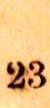23
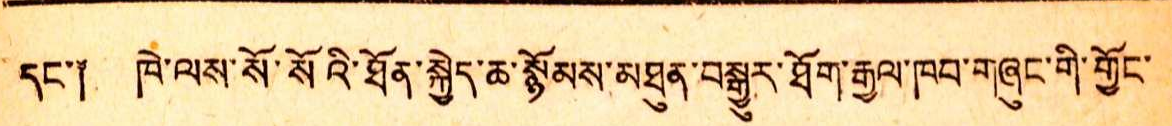དང་། ཁེ་ལས་སོ་སོའི་ཐོན་སྐྱེད་ཆ་སྙོམས་མཐུན་བསྒྱུར་ཐོག་རྒྱལ་ཁབ་གཞུང་གི་གྱོང་
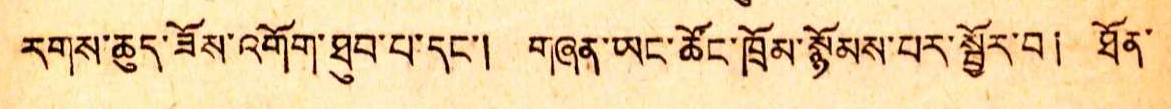རགས་ཆུད་ཟོས་འགོག་ཐུབ་པ་དང་། གཞན་ཡང་ཚོང་ཁྲོམ་སྙོམས་པར་སྦྱོར་བ། ཐོན་
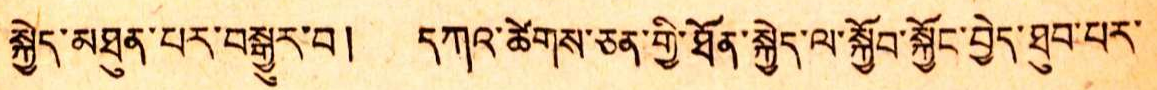སྐྱེད་མཐུན་པར་བསྒྱུར་བ། དཀའ་ཚེགས་ཅན་གྱི་ཐོན་སྐྱེད་ལ་སྐྱོབ་སྐྱོང་བྱེད་ཐུབ་པར་
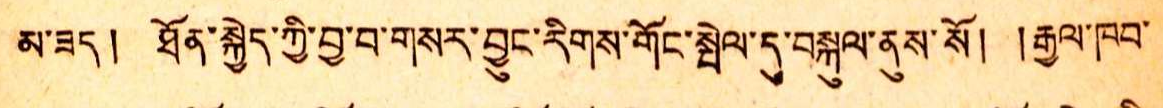མ་ཟད། ཐོན་སྐྱེད་ཀྱི་བྱ་བ་གསར་བྱུང་རིགས་གོང་སྤེལ་དུ་བསྐུལ་ནུས་སོ། །རྒྱལ་ཁབ་
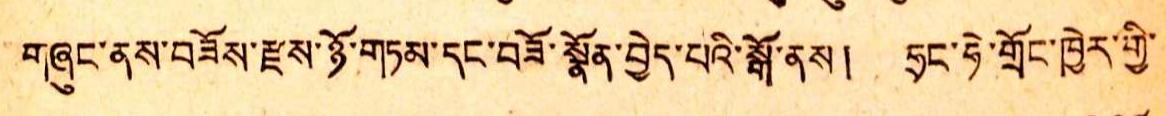གཞུང་ནས་བཟོས་རྫས་ཉོ་གཏམ་དང་བཟོ་སྣོན་བྱེད་པའི་སྒོ་ནས། ཧྲང་ཧེ་གྲོང་ཁྱེར་གྱི་
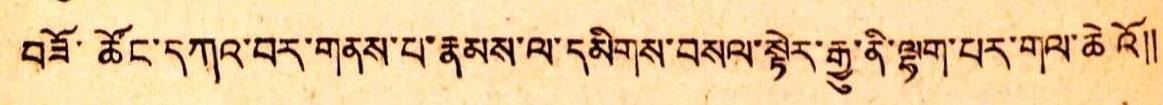བཟོ་ཚོང་དཀའ་བར་གནས་པ་རྣམས་ལ་དམིགས་བསལ་སྟེར་རྒྱུ་ནི་ལྷག་པར་གལ་ཆེའོ༎
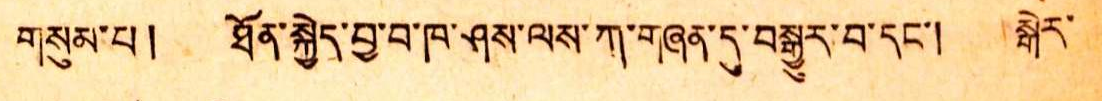གསུམ་པ། ཐོན་སྐྱེད་བྱ་བ་ཁ་ཤས་ལས་ཀ་གཞན་དུ་བསྒྱུར་བ་དང་། སྒེར་
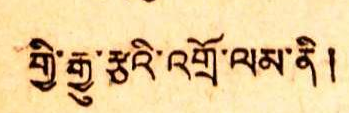གྱི་རྒྱུ་རྩའི་འགྲོ་ལམ་ནི།
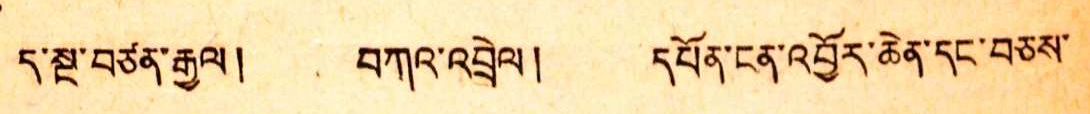ད་སྔ་བཙན་རྒྱལ། བཀའ་འབྲེལ། དཔོན་ངན་འབྱོར་ཆེན་དང་བཅས་
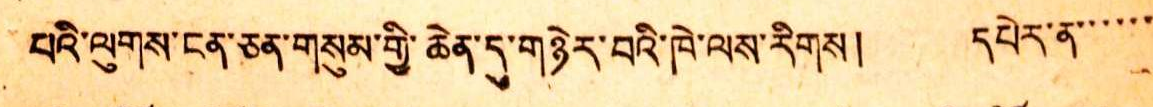བའི་ལུགས་ངན་ཅན་གསུམ་གྱི་ཆེན་དུ་གཉེར་བའི་ཁེ་ལས་རིགས། དཔེར་ན་་་་་་
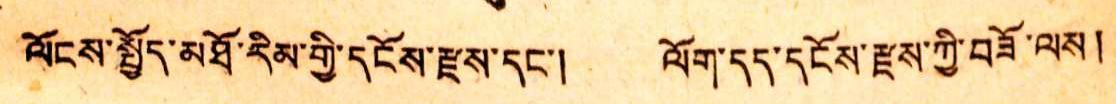ལོངས་སྤྱོད་མཐོ་རིམ་གྱི་དངོས་རྫས་དང་། ལོག་དད་དངོས་རྫས་ཀྱི་བཟོ་ལས།
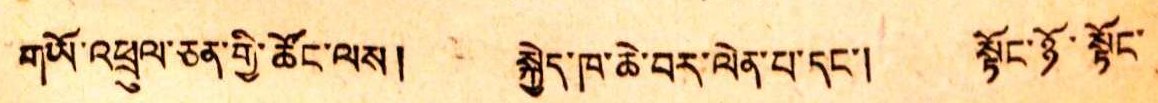གཡོ་འཕྲུལ་ཅན་གྱི་ཚོང་ལས། སྐྱེད་ཁ་ཆེ་བར་ལེན་པ་དང་། སྟོང་ཉོ་སྟོང་
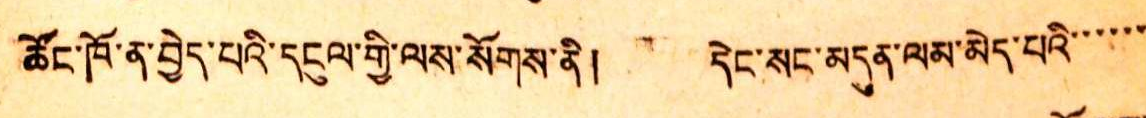ཚོང་ཁོ་ན་བྱེད་པའི་དངུལ་གྱི་ལས་སོགས་ནི། དེང་སང་མདུན་ལམ་མེད་པའི་་་་་་
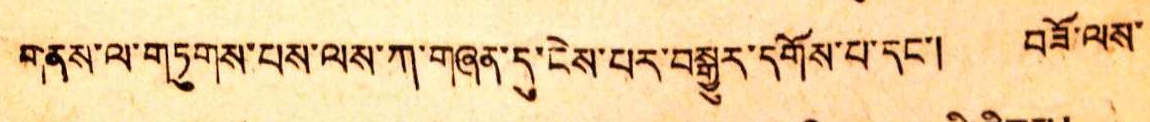གནས་ལ་གཏུགས་པས་ལས་ཀ་གཞན་དུ་ངེས་པར་བསྒྱུར་དགོས་པ་དང་། བཟོ་ལས་
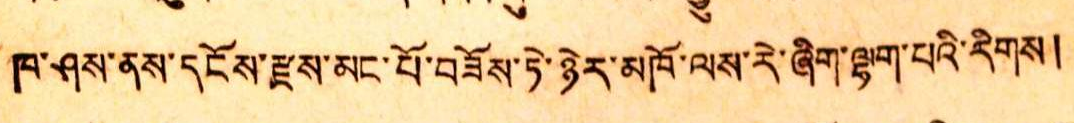ཁ་ཤས་ནས་དངོས་རྫས་མང་པོ་བཟོས་ཏེ་ཉེར་མཁོ་ལས་རེ་ཞིག་ལྷག་པའི་རིགས།
